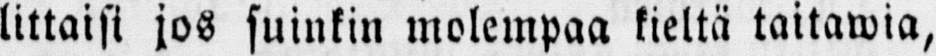littaisi jos suinkin molempaa kieltä taitawia,
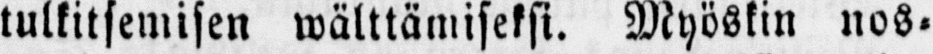tulkitsemisen wälttämiseksi. Myöskin nos-
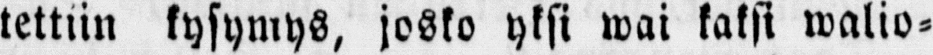tettiin kysymys, josko yksi wai kaksi walio-
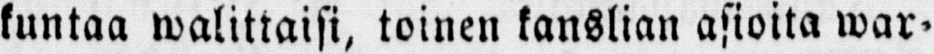kuntaa walittaisi, toinen kanslian asioita war-
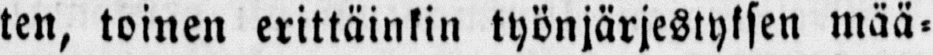ten, toinen erittäinkin työnjärjestyksen mää-
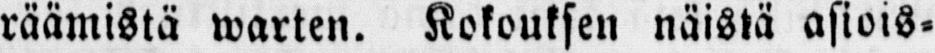räämistä warten. Kokouksen näistä asiois-
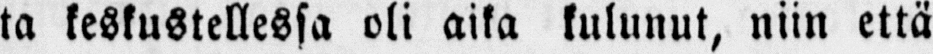ta keskustellessa oli aika kulunut, niin että
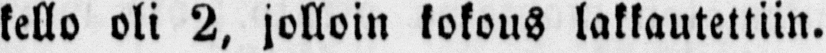kello oli 2, jolloin kokous lakkautettiin.
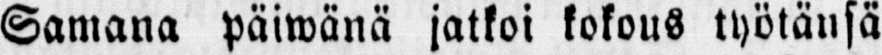Samana päiwänä jatkoi kokous työtänsä
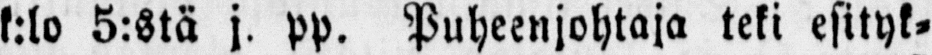k:lo 5:stä j. pp. Puheenjohtaja teki esityk-
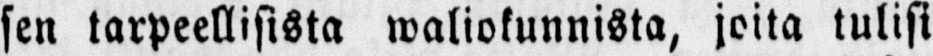sen tarpeellisista waliokunnista, joita tulisi
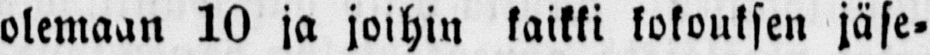olemaan 10 ja joihin kaikki kokouksen jäse-
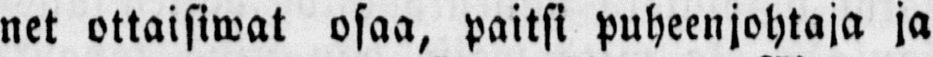net ottaisiwat osaa, paitsi puheenjohtaja ja
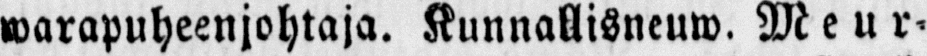warapuheenjohtaja. Kunnallisneuw. Meur-
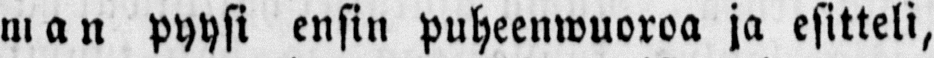man pyysi ensin puheenwuoroa ja esitteli,
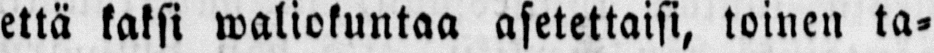että kaksi waliokuntaa asetettaisi, toinen ta-
